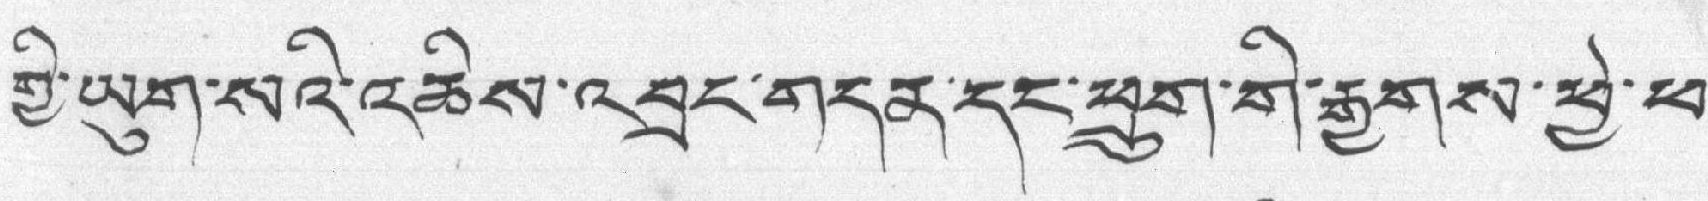གྱི་ཡུག་སའི་འཆིས་འབྲང་གདན་དང་ཕྲུག་གི་རྒྱགས་ཕྱེ་ཕ་
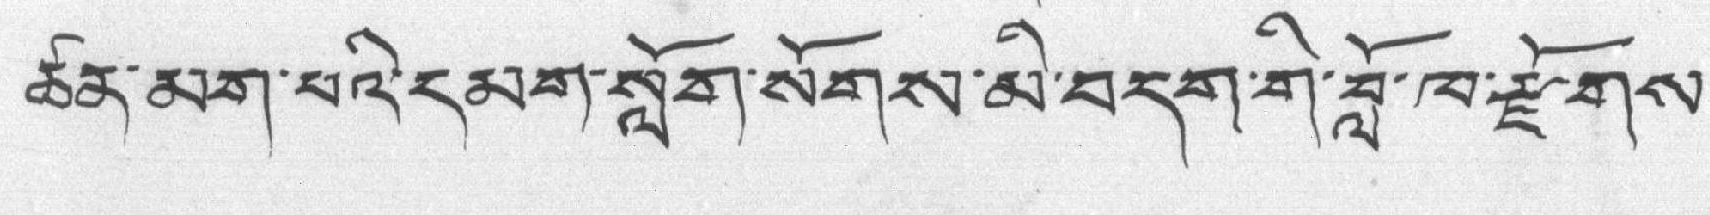ཚན་མག་པའི་དམག་སློག་སོགས་མི་བདག་གི་བློ་ཁ་རྫོགས་
